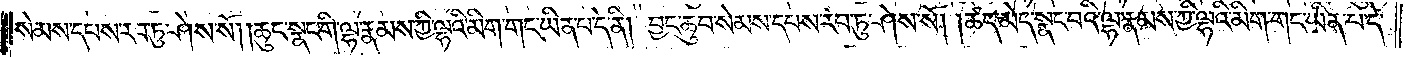སེམས་དཔས་རབ་ཏུ་ཤེས་སོ། །ཆུང་སྣང་གི་ལྷ་རྣམས་ཀྱི་ལྷའི་མིག་གང་ཡིན་པ་དེ་ནི། བྱང་ཆུབ་སེམས་དཔས་རབ་ཏུ་ཤེས་སོ། །ཚད་མེད་སྣང་བའི་ལྷ་རྣམས་ཀྱི་ལྷའི་མིག་གང་ཡིན་པ་དེ་
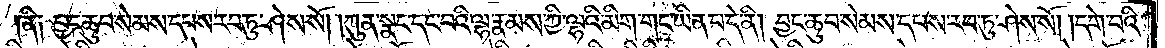ནི༑ བྱང་ཆུབ་སེམས་དཔས་རབ་ཏུ་ཤེས་སོ། །ཀུན་སྣང་དང་བའི་ལྷ་རྣམས་ཀྱི་ལྷའི་མིག་གང་ཡིན་པ་དེ་ནི། བྱང་ཆུབ་སེམས་དཔས་རབ་ཏུ་ཤེས་སོ། །དགེ་བའི་
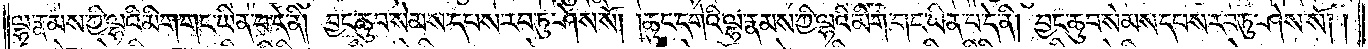ལྷ་རྣམས་ཀྱི་ལྷའི་མིག་གང་ཡིན་པ་དེ་ནི། བྱང་ཆུབ་སེམས་དཔས་རབ་ཏུ་ཤེས་སོ། །ཆུང་དགེའི་ལྷ་རྣམས་ཀྱི་ལྷའི་མིག་གང་ཡིན་པ་དེ་ནི། བྱང་ཆུབ་སེམས་དཔས་རབ་ཏུ་ཤེས་སོ། །
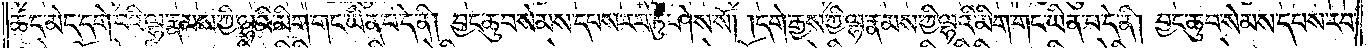ཚད་མེད་དགེ་བའི་ལྷ་རྣམས་ཀྱི་ལྷའི་མིག་གང་ཡིན་པ་དེ་ནི། བྱང་ཆུབ་སེམས་དཔས་རབ་ཏུ་ཤེས་སོ། །དགེ་རྒྱས་ཀྱི་ལྷ་རྣམས་ཀྱི་ལྷའི་མིག་གང་ཡིན་པ་དེ་ནི། བྱང་ཆུབ་སེམས་དཔས་རབ་
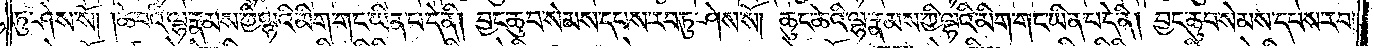ཏུ་ཤེས་སོ། །ཆེ་བའི་ལྷ་རྣམས་ཀྱི་ལྷའི་མིག་གང་ཡིན་པ་དེ་ནི། བྱང་ཆུབ་སེམས་དཔས་རབ་ཏུ་ཤེས་སོ། ཆུང་ཆེའི་ལྷ་རྣམས་ཀྱི་ལྷའི་མིག་གང་ཡིན་པ་དེ་ནི། བྱང་ཆུབ་སེམས་དཔས་རབ་
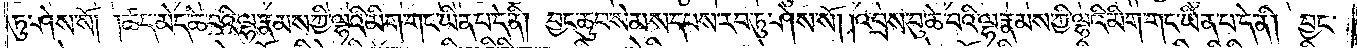ཏུ་ཤེས་སོ། །ཚད་མེད་ཆེ་བའི་ལྷ་རྣམས་ཀྱི་ལྷའི་མིག་གང་ཡིན་པ་དེ་ནི། བྱང་ཆུབ་སེམས་དཔས་རབ་ཏུ་ཤེས་སོ། །འབྲས་བུ་ཆེ་བའི་ལྷ་རྣམས་ཀྱི་ལྷའི་མིག་གང་ཡིན་པ་དེ་ནི། བྱང་
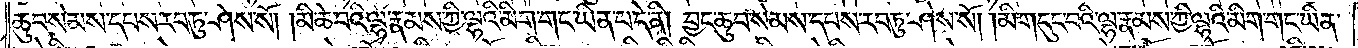ཆུབ་སེམས་དཔས་རབ་ཏུ་ཤེས་སོ། །མི་ཆེ་བའི་ལྷ་རྣམས་ཀྱི་ལྷའི་མིག་གང་ཡིན་པ་དེ་ནི། བྱང་ཆུབ་སེམས་དཔས་རབ་ཏུ་ཤེས་སོ། །མི་གདུང་བའི་ལྷ་རྣམས་ཀྱི་ལྷའི་མིག་གང་ཡིན་
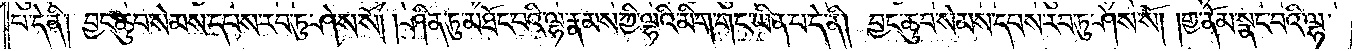པ་དེ་ནི། བྱང་ཆུབ་སེམས་དཔས་རབ་ཏུ་ཤེས་སོ། །ཤིན་ཏུ་མཐོང་བའི་ལྷ་རྣམས་ཀྱི་ལྷའི་མིག་གང་ཡིན་པ་དེ་ནི། བྱང་ཆུབ་སེམས་དཔས་རབ་ཏུ་ཤེས་སོ། །གྱ་ནོམ་སྣང་བའི་ལྷ་
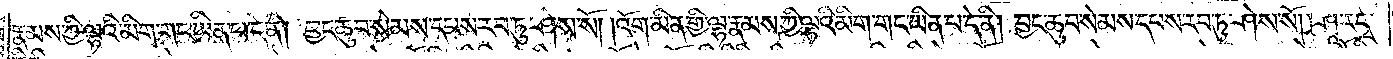རྣམས་ཀྱི་ལྷའི་མིག་གང་ཡིན་པ་དེ་ནི། བྱང་ཆུབ་སེམས་དཔས་རབ་ཏུ་ཤེས་སོ། །འོག་མིན་གྱི་ལྷ་རྣམས་ཀྱི་ལྷའི་མིག་གང་ཡིན་པ་དེ་ནི། བྱང་ཆུབ་སེམས་དཔས་རབ་ཏུ་ཤེས་སོ། །ཤ་རདྭ་
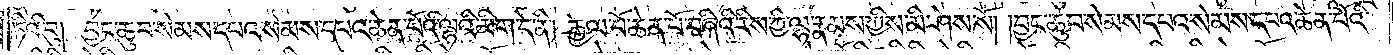ཏིའི་བུ། བྱང་ཆུབ་སེམས་དཔའ་སེམས་དཔའ་ཆེན་པོའི་ལྷའི་མིག་དེ་ནི། རྒྱལ་པོ་ཆེན་པོ་བཞིའི་རིས་ཀྱི་ལྷ་རྣམས་ཀྱིས་མི་ཤེས་སོ། །བྱང་ཆུབ་སེམས་དཔའ་སེམས་དཔའ་ཆེན་པོའི་
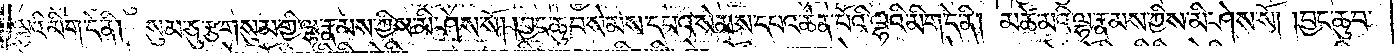ལྷའི་མིག་དེ་ནི། སུམ་ཅུ་རྩ་གསུམ་གྱི་ལྷ་རྣམས་ཀྱིས་མི་ཤེས་སོ། །བྱང་ཆུབ་སེམས་དཔའ་སེམས་དཔའ་ཆེན་པོའི་ལྷའི་མིག་དེ་ནི། མཚེ་མའི་ལྷ་རྣམས་ཀྱིས་མི་ཤེས་སོ། །བྱང་ཆུབ་
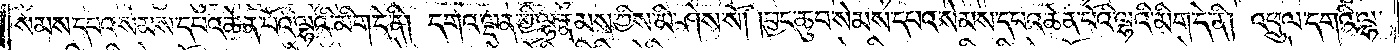སེམས་དཔའ་སེམས་དཔའ་ཆེན་པོའི་ལྷའི་མིག་དེ་ནི། དགའ་ལྡན་གྱི་ལྷ་རྣམས་ཀྱིས་མི་ཤེས་སོ། །བྱང་ཆུབ་སེམས་དཔའ་སེམས་དཔའ་ཆེན་པོའི་ལྷའི་མིག་དེ་ནི། འཕྲུལ་དགའི་ལྷ་
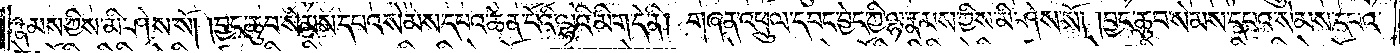རྣམས་ཀྱིས་མི་ཤེས་སོ། །བྱང་ཆུབ་སེམས་དཔའ་སེམས་དཔའ་ཆེན་པོའི་ལྷའི་མིག་དེ་ནི། གཞན་འཕྲུལ་དབང་བྱེད་ཀྱི་ལྷ་རྣམས་ཀྱིས་མི་ཤེས་སོ། །བྱང་ཆུབ་སེམས་དཔའ་སེམས་དཔའ་
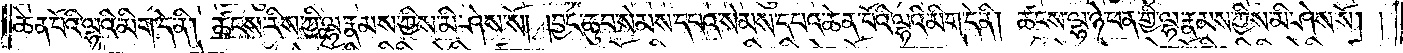ཆེན་པོའི་ལྷའི་མིག་དེ་ནི། ཚངས་རིས་ཀྱི་ལྷ་རྣམས་ཀྱིས་མི་ཤེས་སོ། །བྱང་ཆུབ་སེམས་དཔའ་སེམས་དཔའ་ཆེན་པོའི་ལྷའི་མིག་དེ་ནི། ཚངས་ལྷ་ཉེ་ཕན་གྱི་ལྷ་རྣམས་ཀྱིས་མི་ཤེས་སོ། །
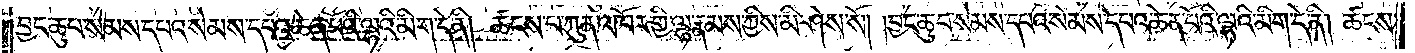བྱང་ཆུབ་སེམས་དཔའ་སེམས་དཔའ་ཆེན་པོའི་ལྷའི་མིག་དེ་ནི། ཚངས་པ་ཀུན་འཁོར་གྱི་ལྷ་རྣམས་ཀྱིས་མི་ཤེས་སོ། །བྱང་ཆུབ་སེམས་དཔའ་སེམས་དཔའ་ཆེན་པོའི་ལྷའི་མིག་དེ་ནི། ཚངས་
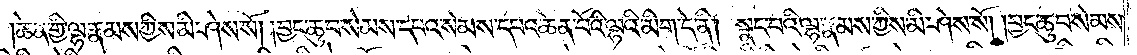ཆེན་གྱི་ལྷ་རྣམས་ཀྱིས་མི་ཤེས་སོ། །བྱང་ཆུབ་སེམས་དཔའ་སེམས་དཔའ་ཆེན་པོའི་ལྷའི་མིག་དེ་ནི། སྣང་བའི་ལྷ་རྣམས་ཀྱིས་མི་ཤེས་སོ། །བྱང་ཆུབ་སེམས་
